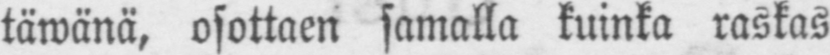täwänä, osottaen samalla kuinka raskas
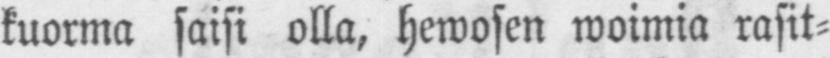kuorma saisi olla, hewosen woimia rasit-
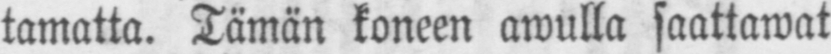tamatta. Tämän koneen awulla saattawat
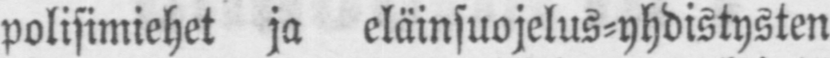polisimiehet ja eläinsuojelus-yhdistysten
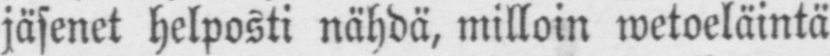jäsenet helposti nähdä, milloin wetoeläintä
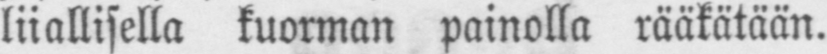liiallisella kuorman painolla rääkätään.
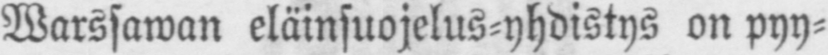Warssawan eläinsuojelus-yhdistys on pyy-
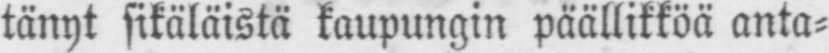tänyt sikäläistä kaupungin päällikköä anta-
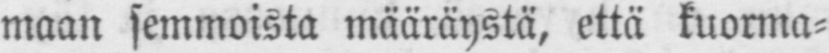maan semmoista määräystä, että kuorma-
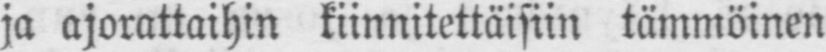ja ajorattaihin kiinnitettäisiin tämmöinen
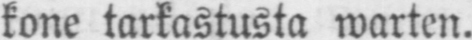kone tarkastusta warten.
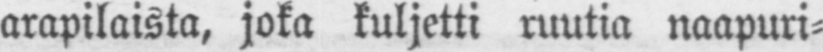arapilaista, joka kuljetti ruutia naapuri-
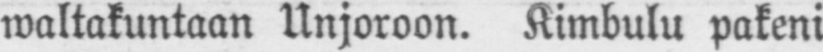waltakuntaan Unjoroon. Kimbulu pakeni
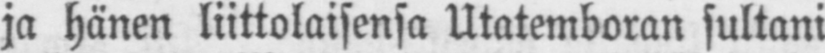ja hänen liittolaisensa Utatemboran sultani
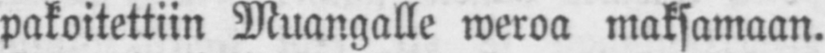pakoitettiin Muangalle weroa maksamaan.
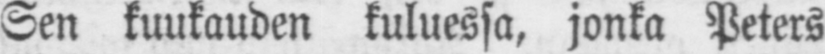Sen kuukauden kuluessa, jonka Peters
